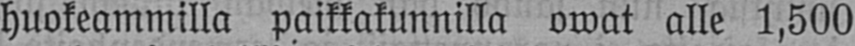huokeammilla paikkakunnilla owat alle 1,500
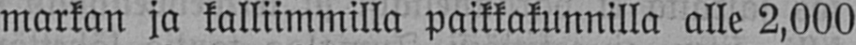markan ja kalliimmilla paikkakunnilla alle 2,000
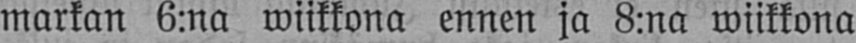markan 6:na wiikkona ennen ja 8:na wiikkona
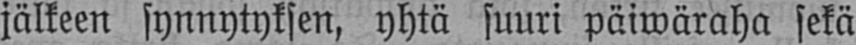jälkeen synnytyksen, yhtä suuri päiwäraha sekä
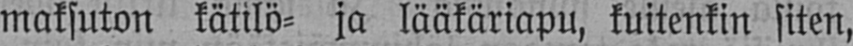maksuton kätilö- ja lääkäriapu, kuitenkin siten,
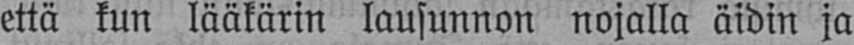että kun lääkärin lausunnon nojalla äidin ja
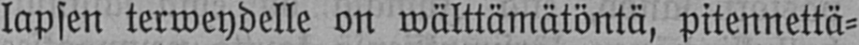lapsen terweydelle on wälttämätöntä, pitennettä-
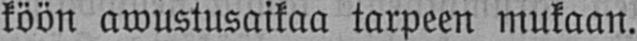köön awustusaikaa tarpeen mukaan.
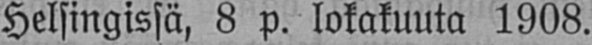Helsingissä, 8 p. lokakuuta 1908.
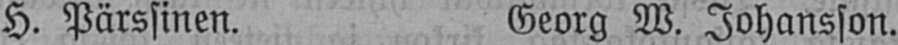H. Pärssinen. Georg W. Johansson.
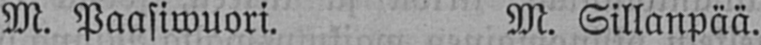M. Paasiwuori. M. Sillanpää.
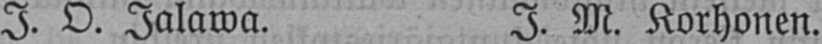I. O. Jalawa. J. M. Korhonen.
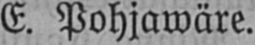E. Pohjawäre.
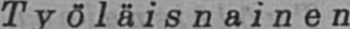Työläisnainen
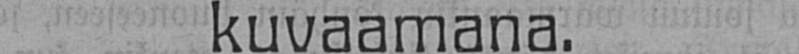Köyhälistö Minna Canthin
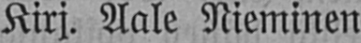Kirj. Aale Nieminen.
